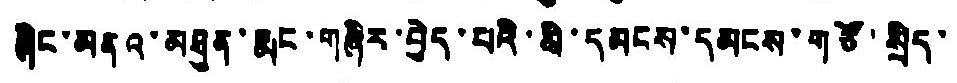ཞིང་མནའ་མཐུན་རྨང་གཞིར་བྱེད་པའི་མི་དམངས་དམངས་གཙོ་སྲིད་
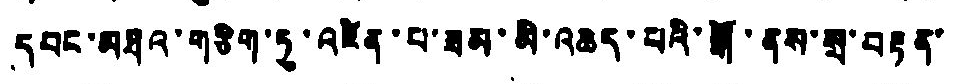དབང་མཐའ་གཅིག་ཏུ་འཛིན་པ་ཟམ་མི་འཆད་པའི་སྒོ་ནས་སྒྲ་བརྟན་
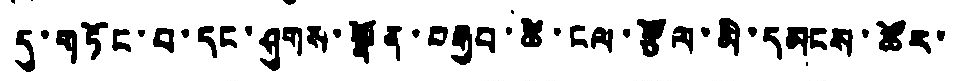དུ་གཏོང་བ་དང་ཤུགས་སྣོན་བརྒྱབ་ཚོ་ངལ་རྩོལ་མི་དམངས་ཚོར་
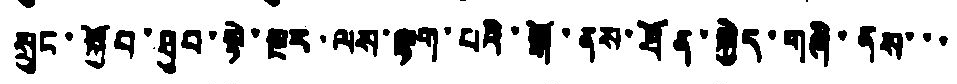སྲུང་སྐྱོབ་ཐུབ་སྟེ་སྔར་ལས་ལྷག་པའི་སྒོ་ནས་ཐོན་སྐྱེད་གཞི་ནས་་་
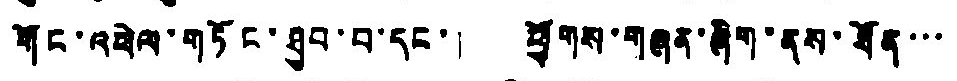གོང་འཕེལ་གཏོང་ཐུབ་པ་དང་། ཕྱོགས་གཞན་ཞིག་ནས་ཐོན་་་
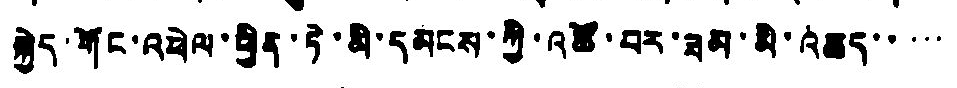སྐྱེད་གོང་འཕེལ་ཕྱིན་ཏེ་མི་དམངས་ཀྱི་འཚོ་བར་ཟམ་མི་འཆད་་་་་
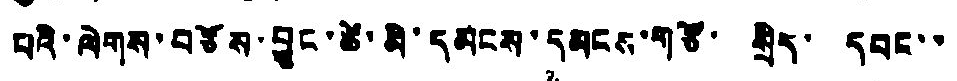པའི་ལེགས་བཅོས་བྱུང་ཚེ་མི་དམངས་དམངས་གཙོ་ སྲིད་ དབང་་
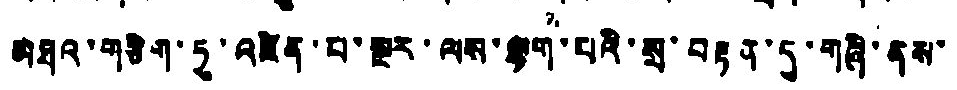མཐའ་གཅིག་ཏུ་འཛིན་པ་སྔར་ལས་ལྷག་པའི་སྲ་བརྟན་དུ་གཞི་ནས་
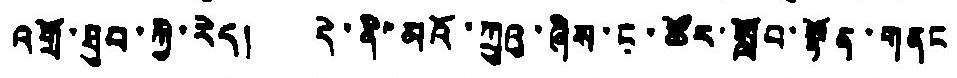འགྲོ་ཐུབ་ཀྱི་རེད། དེ་ནི་མའོ་ཀྲུའུ་ཞིས་ང་ཚོར་སློབ་སྟོན་གནང
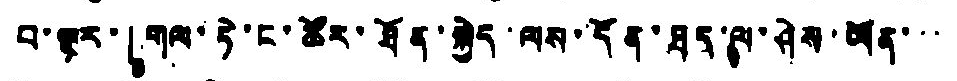བ་ལྟར་「གལ་ཏེ་ང་ཚོར་ཐོན་སྐྱེད་ལས་དོན་ཐད་ལ་ཤེས་ཡོན་་་
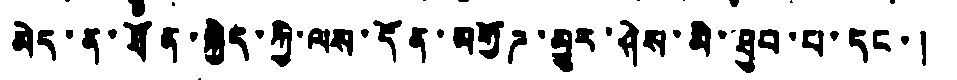མེད་ན་ཐོན་སྐྱེད་ཀྱི་ལས་དོན་མགྱོཌ་མྱུར་ཤེས་མི་ཐུབ་པ་དང་།
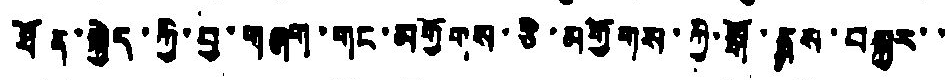ཐོན་སྐྱེད་ཀྱི་བྱ་གཞག་གང་མགྱོགས་ཅི་མགྱོགས་ཀྱི་སྒོ་ནས་བསྒྱར་་
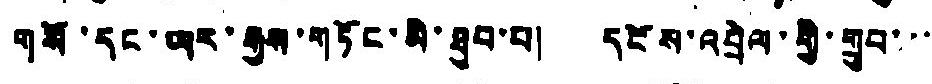གསོ་དང་ཡར་རྒྱས་གཏོང་མི་ཐུབ་པ། དངོས་འབྲེལ་གྱི་གྲུབ་་་་
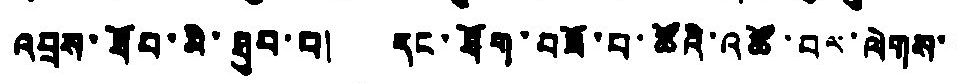འབྲས་ཐོབ་མི་ཐུབ་པ། དང་ཐོག་བཟོ་བ་ཚོའི་འཚོ་བར་ལེགས་
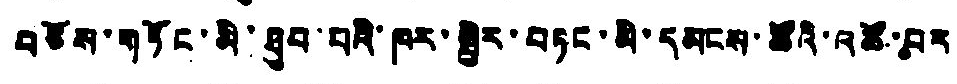བཅོས་གཏོང་མི་ཐུབ་པའི་ཁར་སྤྱིར་བཏང་མི་དམངས་ཚོའི་འཚོ་བར
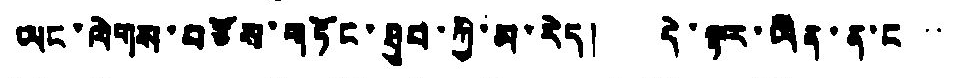ཡང་ལེགས་བཅོས་གཏོང་ཐུབ་ཀྱི་མ་རེད། དེ་ལྟར་ཡིན་ན་ང་་
